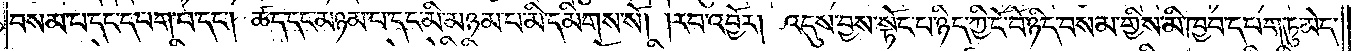བསམ་པ་དང་དཔག་པ་དང༌། ཚད་དང་མཉམ་པ་དང་མི་མཉམ་པ་མི་དམིགས་སོ། །རབ་འབྱོར། འདུས་བྱས་སྟོང་པ་ཉིད་ཀྱི་ངོ་བོ་ཉིད་བསམ་གྱིས་མི་ཁྱབ་དཔག་ཏུ་མེད་
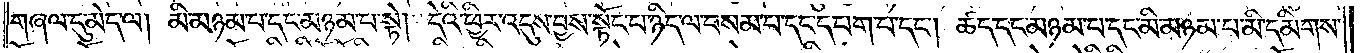གཞལ་དུ་མེད་ལ། མི་མཉམ་པ་དང་མཉམ་པ་སྟེ། དེའི་ཕྱིར་འདུས་བྱས་སྟོང་པ་ཉིད་ལ་བསམ་པ་དང་དཔག་པ་དང༌། ཚད་དང་མཉམ་པ་དང་མི་མཉམ་པ་མི་དམིགས་
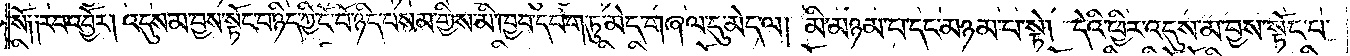སོ། །རབ་འབྱོར། འདུས་མ་བྱས་སྟོང་པ་ཉིད་ཀྱི་ངོ་བོ་ཉིད་བསམ་གྱིས་མི་ཁྱབ་དཔག་ཏུ་མེད་གཞལ་དུ་མེད་ལ། མི་མཉམ་པ་དང་མཉམ་པ་སྟེ། དེའི་ཕྱིར་འདུས་མ་བྱས་སྟོང་པ་
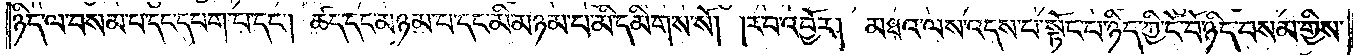ཉིད་ལ་བསམ་པ་དང་དཔག་པ་དང༌། ཚད་དང་མཉམ་པ་དང་མི་མཉམ་པ་མི་དམིགས་སོ། །རབ་འབྱོར། མཐའ་ལས་འདས་པ་སྟོང་པ་ཉིད་ཀྱི་ངོ་བོ་ཉིད་བསམ་གྱིས་
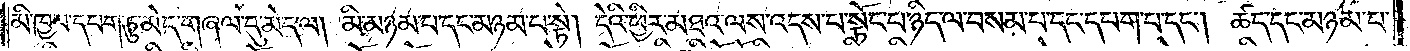མི་ཁྱབ་དཔག་ཏུ་མེད་གཞལ་དུ་མེད་ལ། མི་མཉམ་པ་དང་མཉམ་པ་སྟེ། དེའི་ཕྱིར་མཐའ་ལས་འདས་པ་སྟོང་པ་ཉིད་ལ་བསམ་པ་དང་དཔག་པ་དང༌། ཚད་དང་མཉམ་པ་
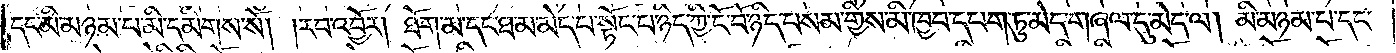དང་མི་མཉམ་པ་མི་དམིགས་སོ། །རབ་འབྱོར། ཐོག་མ་དང་ཐ་མ་མེད་པ་སྟོང་པ་ཉིད་ཀྱི་ངོ་བོ་ཉིད་བསམ་གྱིས་མི་ཁྱབ་དཔག་ཏུ་མེད་གཞལ་དུ་མེད་ལ། མི་མཉམ་པ་དང་
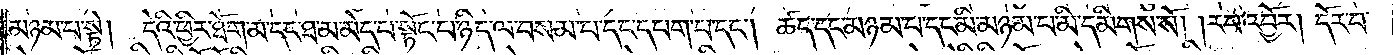མཉམ་པ་སྟེ། དེའི་ཕྱིར་ཐོག་མ་དང་ཐ་མ་མེད་པ་སྟོང་པ་ཉིད་ལ་བསམ་པ་དང་དཔག་པ་དང༌། ཚད་དང་མཉམ་པ་དང་མི་མཉམ་པ་མི་དམིགས་སོ། །རབ་འབྱོར། དོར་བ་
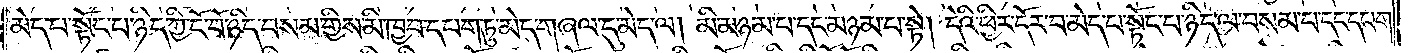མེད་པ་སྟོང་པ་ཉིད་ཀྱི་ངོ་བོ་ཉིད་བསམ་གྱིས་མི་ཁྱབ་དཔག་ཏུ་མེད་གཞལ་དུ་མེད་ལ། མི་མཉམ་པ་དང་མཉམ་པ་སྟེ། དེའི་ཕྱིར་དོར་བ་མེད་པ་སྟོང་པ་ཉིད་ལ་བསམ་པ་དང་དཔག་
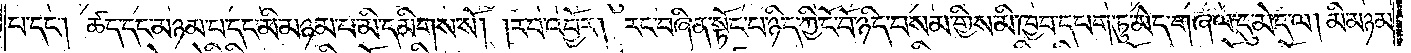པ་དང༌། ཚད་དང་མཉམ་པ་དང་མི་མཉམ་པ་མི་དམིགས་སོ། །རབ་འབྱོར། རང་བཞིན་སྟོང་པ་ཉིད་ཀྱི་ངོ་བོ་ཉིད་བསམ་གྱིས་མི་ཁྱབ་དཔག་ཏུ་མེད་གཞལ་དུ་མེད་ལ། མི་མཉམ་
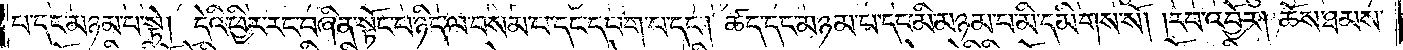པ་དང་མཉམ་པ་སྟེ། དེའི་ཕྱིར་རང་བཞིན་སྟོང་པ་ཉིད་ལ་བསམ་པ་དང་དཔག་པ་དང༌། ཚད་དང་མཉམ་པ་དང་མི་མཉམ་པ་མི་དམིགས་སོ། །རབ་འབྱོར། ཆོས་ཐམས་
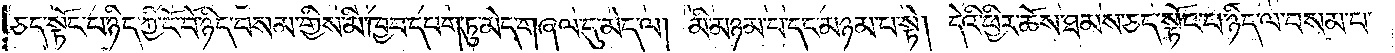ཅད་སྟོང་པ་ཉིད་ཀྱི་ངོ་བོ་ཉིད་བསམ་གྱིས་མི་ཁྱབ་དཔག་ཏུ་མེད་གཞལ་དུ་མེད་ལ། མི་མཉམ་པ་དང་མཉམ་པ་སྟེ། དེའི་ཕྱིར་ཆོས་ཐམས་ཅད་སྟོང་པ་ཉིད་ལ་བསམ་པ་
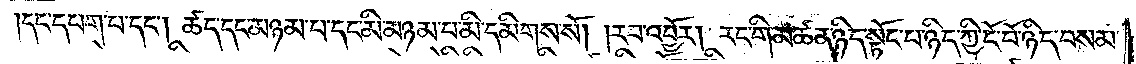དང་དཔག་པ་དང༌། ཚད་དང་མཉམ་པ་དང་མི་མཉམ་པ་མི་དམིགས་སོ། །རབ་འབྱོར། རང་གི་མཚན་ཉིད་སྟོང་པ་ཉིད་ཀྱི་ངོ་བོ་ཉིད་བསམ་
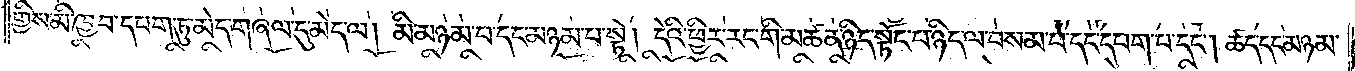གྱིས་མི་ཁྱབ་དཔག་ཏུ་མེད་གཞལ་དུ་མེད་ལ། མི་མཉམ་པ་དང་མཉམ་པ་སྟེ། དེའི་ཕྱིར་རང་གི་མཚན་ཉིད་སྟོང་པ་ཉིད་ལ་བསམ་པ་དང་དཔག་པ་དང༌། ཚད་དང་མཉམ་
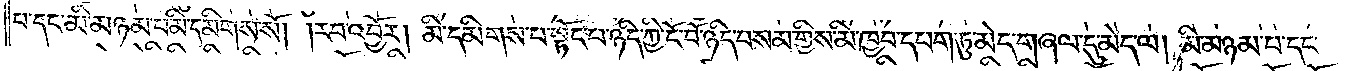པ་དང་མི་མཉམ་པ་མི་དམིགས་སོ། །རབ་འབྱོར། མི་དམིགས་པ་སྟོང་པ་ཉིད་ཀྱི་ངོ་བོ་ཉིད་བསམ་གྱིས་མི་ཁྱབ་དཔག་ཏུ་མེད་གཞལ་དུ་མེད་ལ། མི་མཉམ་པ་དང་
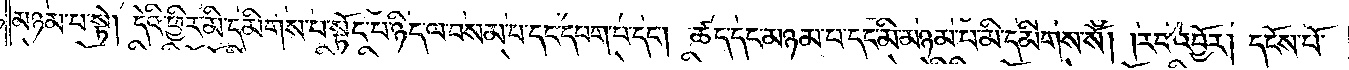མཉམ་པ་སྟེ། དེའི་ཕྱིར་མི་དམིགས་པ་སྟོང་པ་ཉིད་ལ་བསམ་པ་དང་དཔག་པ་དང༌། ཚད་དང་མཉམ་པ་དང་མི་མཉམ་པ་མི་དམིགས་སོ། །རབ་འབྱོར། དངོས་པོ་
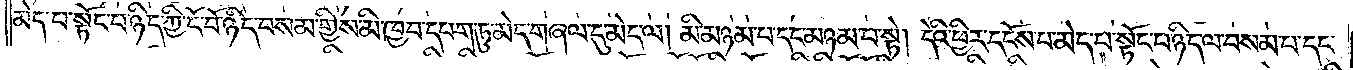མེད་པ་སྟོང་པ་ཉིད་ཀྱི་ངོ་བོ་ཉིད་བསམ་གྱིས་མི་ཁྱབ་དཔག་ཏུ་མེད་གཞལ་དུ་མེད་ལ། མི་མཉམ་པ་དང་མཉམ་པ་སྟེ། དེའི་ཕྱིར་དངོས་པོ་མེད་པ་སྟོང་པ་ཉིད་ལ་བསམ་པ་དང་
